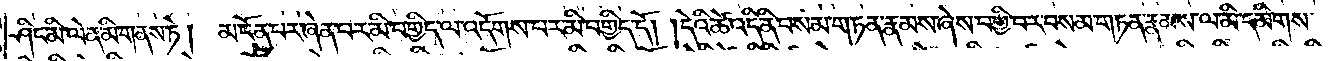ཤིང་མི་ལེན་མི་གནས་ཏེ། མངོན་པར་ཞེན་པར་མི་བགྱིད་ལ་འདོགས་པར་མི་བགྱིད་དོ། །དེའི་ཚེ་འདི་ནི་བསམ་གཏན་རྣམས་ཞེས་བགྱི་བར་བསམ་གཏན་རྣམས་ལ་མི་དམིགས་
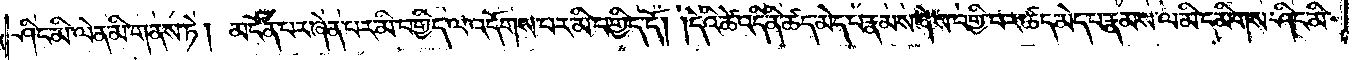ཤིང་མི་ལེན་མི་གནས་ཏེ། མངོན་པར་ཞེན་པར་མི་བགྱིད་ལ་འདོགས་པར་མི་བགྱིད་དོ། །དེའི་ཚེ་འདི་ནི་ཚད་མེད་པ་རྣམས་ཞེས་བགྱི་བར་ཚད་མེད་པ་རྣམས་ལ་མི་དམིགས་ཤིང་མི་
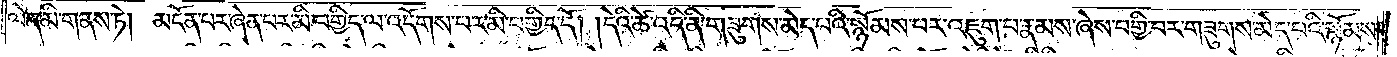ལེན་མི་གནས་ཏེ། མངོན་པར་ཞེན་པར་མི་བགྱིད་ལ་འདོགས་པར་མི་བགྱིད་དོ། །དེའི་ཚེ་འདི་ནི་གཟུགས་མེད་པའི་སྙོམས་པར་འཇུག་པ་རྣམས་ཞེས་བགྱི་བར་གཟུགས་མེད་པའི་སྙོམས་
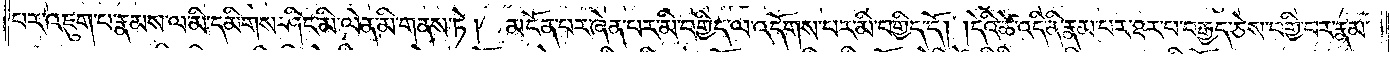པར་འཇུག་པ་རྣམས་ལ་མི་དམིགས་ཤིང་མི་ལེན་མི་གནས་ཏེ། མངོན་པར་ཞེན་པར་མི་བགྱིད་ལ་འདོགས་པར་མི་བགྱིད་དོ། །དེའི་ཚེ་འདི་ནི་རྣམ་པར་ཐར་པ་བརྒྱད་ཅེས་བགྱི་བར་རྣམ་
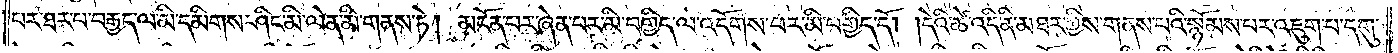པར་ཐར་པ་བརྒྱད་ལ་མི་དམིགས་ཤིང་མི་ལེན་མི་གནས་ཏེ། མངོན་པར་ཞེན་པར་མི་བགྱིད་ལ་འདོགས་པར་མི་བགྱིད་དོ། །དེའི་ཚེ་འདི་ནི་མཐར་ཀྱིས་གནས་པའི་སྙོམས་པ་འཇུག་པ་དགུ་
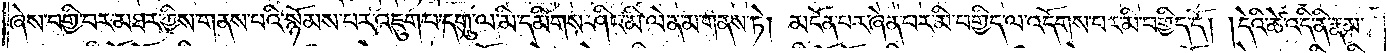ཞེས་བགྱི་བར་མཐར་ཀྱིས་གནས་པའི་སྙོམས་པར་འཇུག་པ་དགུ་ལ་མི་དམིགས་ཤིང་མི་ལེན་མི་གནས་ཏེ། མངོན་པར་ཞེན་པར་མི་བགྱིད་ལ་འདོགས་པར་མི་བགྱིད་དོ། །དེའི་ཚེ་འདི་ནི་རྣམ་
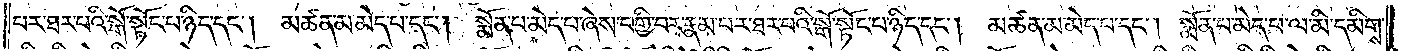པར་ཐར་པའི་སྒོ་སྟོང་པ་ཉིད་དང༌། །མཚན་མ་མེད་པ་དང༌། སྨོན་པ་མེད་པ་ཞེས་བགྱི་བར་རྣམ་པར་ཐར་པའི་སྒོ་སྟོང་པ་ཉིད་དང༌། །མཚན་མ་མེད་པ་དང༌། སྨོན་པ་མེད་པ་ལ་མི་དམིགས་
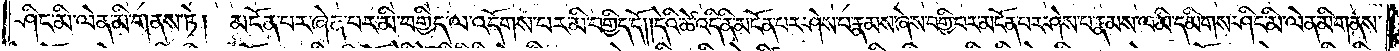ཤིང་མི་ལེན་མི་གནས་ཏེ། །མངོན་པར་ཞེན་པར་མི་བགྱིད་ལ་འདོགས་པར་མི་བགྱིད་དོ། །དེའི་ཚེ་འདི་ནི་མངོན་པར་ཤེས་པ་རྣམས་ཞེས་བགྱི་བར་མངོན་པར་ཤེས་པ་རྣམས་ལ་མི་དམིགས་ཤིང་མི་ལེན་མི་གནས་
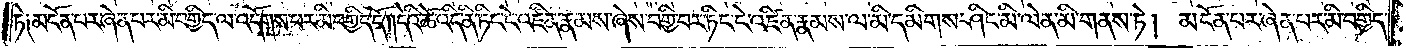ཏེ༑ མངོན་པར་ཞེན་པར་མི་བགྱིད་ལ་འདོགས་པར་མི་བགྱིད་དོ། །དེའི་ཚེ་འདི་ནི་ཏིང་ངེ་འཛིན་རྣམས་ཞེས་བགྱི་བར་ཏིང་ངེ་འཛིན་རྣམས་ལ་མི་དམིགས་ཤིང་མི་ལེན་མི་གནས་ཏེ། མངོན་པར་ཞེན་པར་མི་བགྱིད་
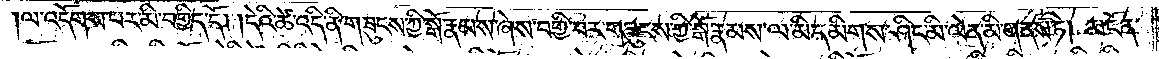ལ་འདོགས་པར་མི་བགྱིད་དོ། །དེའི་ཚེ་འདི་ནི་གཟུངས་ཀྱི་སྒོ་རྣམས་ཞེས་བགྱི་བར་གཟུངས་ཀྱི་སྒོ་རྣམས་ལ་མི་དམིགས་ཤིང་མི་ལེན་མི་གནས་ཏེ། མངོན་
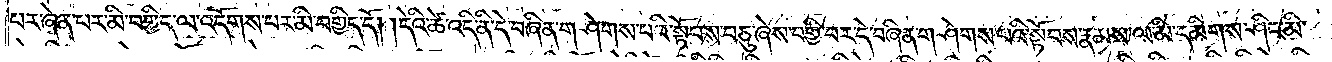པར་ཞེན་པར་མི་བགྱིད་ལ་འདོགས་པར་མི་བགྱིད་དོ། །དེའི་ཚེ་འདི་ནི་དེ་བཞིན་གཤེགས་པའི་སྟོབས་བཅུ་ཞེས་བགྱི་བར་དེ་བཞིན་གཤེགས་པའི་སྟོབས་རྣམས་ལ་མི་དམིགས་ཤིང་མི་
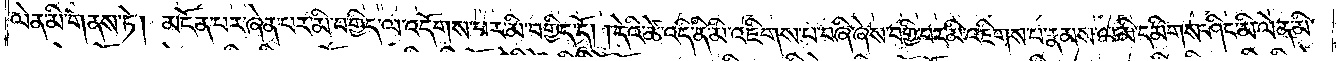ལེན་མི་གནས་ཏེ། མངོན་པར་ཞེན་པར་མི་བགྱིད་ལ་འདོགས་པར་མི་བགྱིད་དོ། །དེའི་ཚེ་འདི་ནི་མི་འཇིགས་པ་བཞི་ཞེས་བགྱི་བར་མི་འཇིགས་པ་རྣམས་ལ་མི་དམིགས་ཤིང་མི་ལེན་མི་
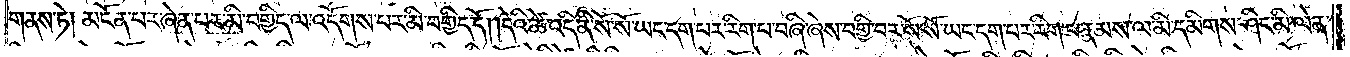གནས་ཏེ། མངོན་པར་ཞེན་པར་མི་བགྱིད་ལ་འདོགས་པར་མི་བགྱིད་དོ། །དེའི་ཚེ་འདི་ནི་སོ་སོ་ཡང་དག་པར་རིག་པ་བཞི་ཞེས་བགྱི་བར་སོ་སོ་ཡང་དག་པར་རིག་པ་རྣམས་ལ་མི་དམིགས་ཤིང་མི་ལེན་
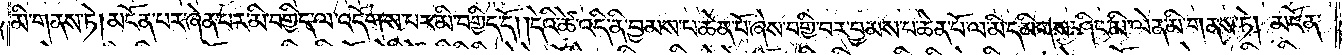མི་གནས་ཏེ། མངོན་པར་ཞེན་པར་མི་བགྱིད་ལ་འདོགས་པར་མི་བགྱིད་དོ། །དེའི་ཚེ་འདི་ནི་བྱམས་པ་ཆེན་པོ་ཞེས་བགྱི་བར་བྱམས་པ་ཆེན་པོ་ལ་མི་དམིགས་ཤིང་མི་ལེན་མི་གནས་ཏེ། མངོན་
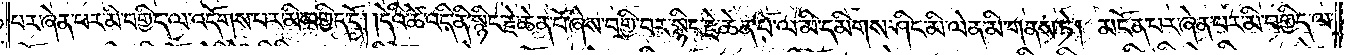པར་ཞེན་པར་མི་བགྱིད་ལ་འདོགས་པར་མི་བགྱིད་དོ། །དེའི་ཚེ་འདི་ནི་སྙིང་རྗེ་ཆེན་པོ་ཞེས་བགྱི་བར་སྙིང་རྗེ་ཆེན་པོ་ལ་མི་དམིགས་ཤིང་མི་ལེན་མི་གནས་ཏེ། མངོན་པར་ཞེན་པར་མི་བགྱིད་ལ་
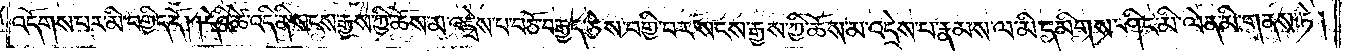འདོགས་པར་མི་བགྱིད་དོ། །དེའི་ཚེ་འདི་ནི་སངས་རྒྱས་ཀྱི་ཆོས་མ་འདྲེས་པ་བཅོ་བརྒྱད་ཅེས་བགྱི་བར་སངས་རྒྱས་ཀྱི་ཆོས་མ་འདྲེས་པ་རྣམས་ལ་མི་དམིགས་ཤིང་མི་ལེན་མི་གནས་ཏེ།
